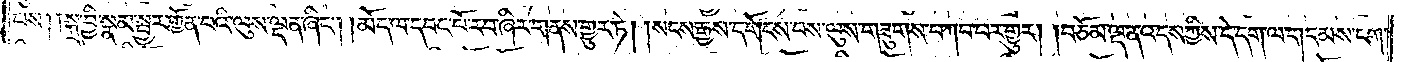པས། །སྐྲ་བྱི་སྣམ་སྦྱར་གྱོན་པའི་ལུས་ལྡན་ཞིང༌། །མོད་ལ་དབང་པོ་རབ་ཞིར་གནས་གྱུར་ཏེ། །སངས་རྒྱས་དགོངས་པས་ལུས་གཟུགས་བཀབ་པར་གྱུར། །བཅོམ་ལྡན་འདས་ཀྱིས་དེ་དག་ལ་གདམས་ངག་
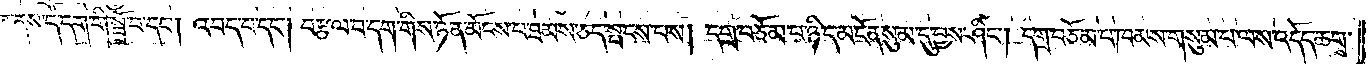བྱིན་ནས་དེ་དག་གིས་སྤྲོ་བ་དང༌། འབད་པ་དང༌། བརྩལ་བ་དག་གིས་ཉོན་མོངས་པ་ཐམས་ཅད་སྤངས་པས། དགྲ་བཅོམ་པ་ཉིད་མངོན་སུམ་དུ་བྱས་ཤིང༌། དགྲ་བཅོམ་པ་ཁམས་གསུམ་པ་ལས་འདོད་ཆགས་
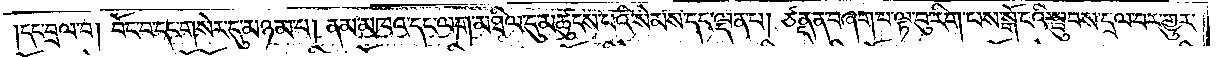།དང་བྲལ་བ། བོང་བ་དང་གསེར་དུ་མཉམ་པ། ནམ་མཁའ་དང་ལག་མཐིལ་དུ་མཚུངས་པའི་སེམས་དང་ལྡན་པ། ཙནྡན་བཞག་པ་ལྟ་བུ་རིག་པས་སྒོ་ངའི་སྦུབས་དྲལ་བར་གྱུར་
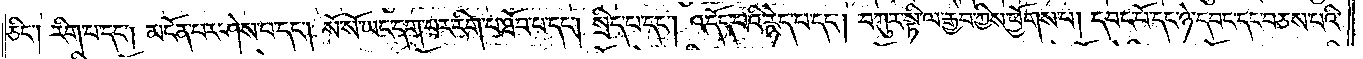ཅིང༌། རིག་པ་དང༌། མངོན་པར་ཤེས་པ་དང༌། སོ་སོ་ཡང་དག་པར་རིག་པ་ཐོབ་པ་དང༌། སྲིད་པ་དང༌། འདོད་པའི་རྙེད་པ་དང༌། བཀུར་སྟི་ལ་རྒྱབ་ཀྱིས་ཕྱོགས་པ། དབང་པོ་དང་ཉེ་དབང་དང་བཅས་པའི་
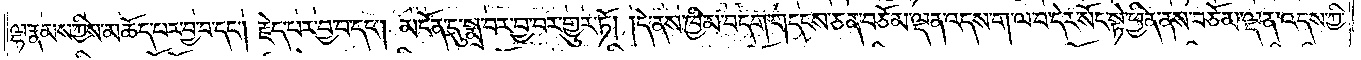ལྷ་རྣམས་ཀྱིས་མཆོད་པར་བྱ་བ་དང༌། རྗེད་པར་བྱ་བ་དང༌། མངོན་དུ་སྨྲ་བར་བྱ་བར་གྱུར་ཏོ། །དེ་ནས་ཁྱིམ་བདག་གདངས་ཅན་བཅོམ་ལྡན་འདས་ག་ལ་བ་དེར་སོང་སྟེ་ཕྱིན་ནས་བཅོམ་ལྡན་འདས་ཀྱི་
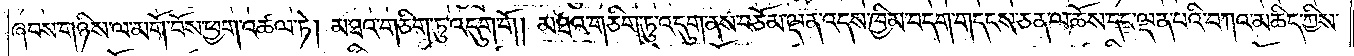ཞབས་གཉིས་ལ་མགོ་བོས་ཕྱག་འཚལ་ཏེ། མཐའ་གཅིག་ཏུ་འདུག་གོ །མཐའ་གཅིག་ཏུ་འདུག་ནས་བཅོམ་ལྡན་འདས་ཁྱིམ་བདག་གདངས་ཅན་ལ་ཆོས་དང་ལྡན་པའི་བཀའ་མཆིད་ཀྱིས་
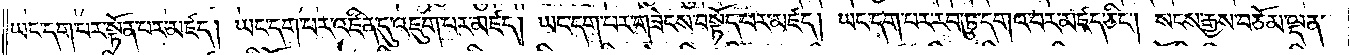ཡང་དག་པར་སྟོན་པར་མཛད། ཡང་དག་པར་འཛིན་དུ་འཇུག་པར་མཛད། ཡང་དག་པར་གཟེངས་བསྟོད་པར་མཛད། ཡང་དག་པར་རབ་ཏུ་དགའ་བར་མཛད་ཅིང༌། སངས་རྒྱས་བཅོམ་ལྡན་
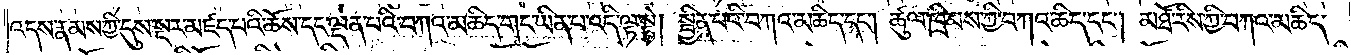འདས་རྣམས་ཀྱི་དུས་སྔར་མཛད་པའི་ཆོས་དང་ལྡན་པའི་བཀའ་མཆིད་གང་ཡིན་པ་འདི་ལྟ་སྟེ། སྦྱིན་པའི་བཀའ་མཆིད་དང༌། ཚུལ་ཁྲིམས་ཀྱི་བཀའ་ཆིད་དང༌། མཐོ་རིས་ཀྱི་བཀའ་མཆིད་
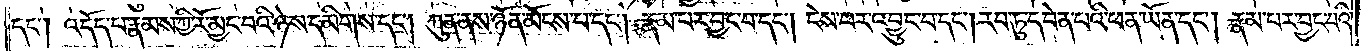དང༌། འདོད་པ་རྣམས་ཀྱི་རོ་མྱང་བའི་ཉེས་དམིགས་དང༌། ཀུན་ནས་ཉོན་མོངས་པ་དང༌། རྣམ་པར་བྱང་བ་དང༌། ངེས་པར་འབྱུང་བ་དང༌། རབ་ཏུ་དབེན་པའི་ཕན་ཡོན་དང༌། རྣམ་པར་བྱང་བའི་
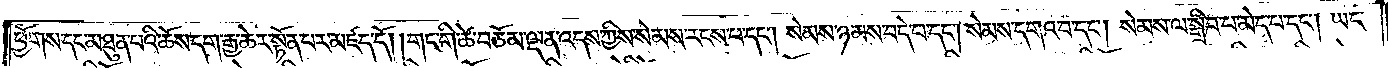ཕྱོགས་དང་མཐུན་པའི་ཆོས་དག་རྒྱ་ཆེར་སྟོན་པར་མཛད་དོ། །གང་གི་ཚེ་བཅོམ་ལྡན་འདས་ཀྱིས་སེམས་རངས་པ་དང༌། སེམས་ཉམས་བདེ་བ་དང༌། སེམས་དགའ་བ་དང༌། སེམས་ལ་སྒྲིབ་པ་མེད་པ་དང༌། ཡང་
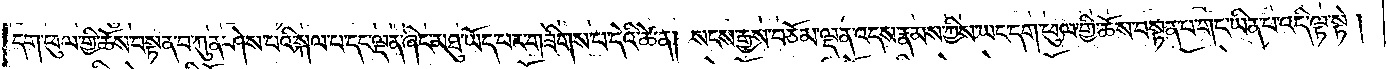དག་ཕུལ་གྱི་ཆོས་བསྟན་བ་ཀུན་ཤེས་པའི་སྐལ་པ་དང་ལྡན་ཞིང་མཐུ་ཡོད་པར་གཟིགས་པ་དེའི་ཚེ་ན། སངས་རྒྱས་བཅོམ་ལྡན་འདས་རྣམས་ཀྱིས་ཡང་དག་ཕུལ་གྱི་ཆོས་བསྟན་པ་གང་ཡིན་པ་འདི་ལྟ་སྟེ།
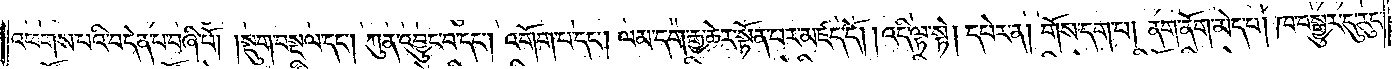འཕགས་པའི་བདེན་པ་བཞི་པོ། །སྡུག་བསྔལ་དང༌། ཀུན་འབྱུང་བ་དང༌། འགོག་པ་དང༌། ལམ་དག་རྒྱ་ཆེར་སྟོན་པར་མཛད་དོ། །འདི་ལྟ་སྟེ། དཔེར་ན། གོས་དག་པ། ནག་ནོག་མེད་པ། ཁ་བསྒྱུར་དུ་རུང་
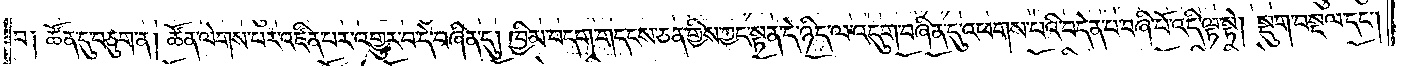བ༑ ཚོན་དུ་བཅུག་ན། ཚོན་ལེགས་པར་འཛིན་པར་འགྱུར་བ་དེ་བཞིན་དུ། ཁྱིམ་བདག་གདངས་ཅན་གྱིས་ཀྱང་སྟན་དེ་ཉིད་ལ་འདུག་བཞིན་དུ་འཕགས་པའི་བདེན་པ་བཞི་པོ་འདི་ལྟ་སྟེ། སྡུག་བསྔལ་དང༌།
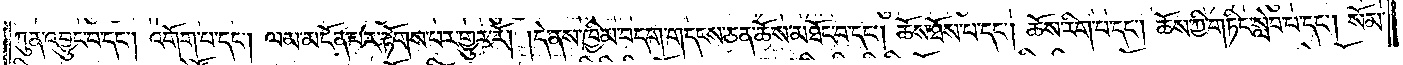ཀུན་འབྱུང་བ་དང༌། འགོག་པ་དང༌། ལམ་མངོན་པར་རྟོགས་པར་གྱུར་རོ། །དེ་ནས་ཁྱིམ་བདག་གདངས་ཅན་ཆོས་མཐོང་བ་དང༌། ཆོས་ཐོས་པ་དང༌། ཆོས་རིག་པ་དང༌། ཆོས་ཀྱི་གཏིང་སླེབ་པ་དང༌། སོམ་
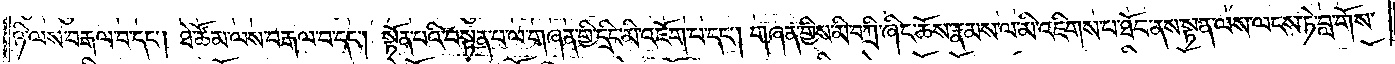ཉི་ལས་བརྒལ་བ་དང༌། ཐེ་ཚོམ་ལས་བརྒལ་བ་དང༌། སྟོན་པའི་བསྟན་པ་ལ་གཞན་གྱི་དྲིང་མི་འཇོག་པ་དང༌། གཞན་གྱིས་མི་བཀྲི་ཞིང་ཆོས་རྣམས་ལ་མི་འཇིགས་པ་ཐོང་ནས་སྟན་ལས་ལངས་ཏེ་བླ་གོས་
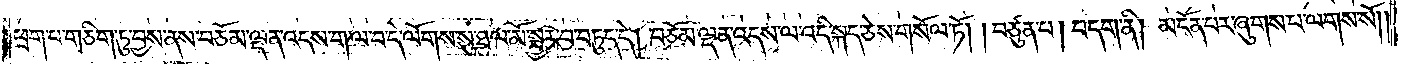ཕྲག་པ་གཅིག་ཏུ་བྱས་ནས་བཅོམ་ལྡན་འདས་ག་ལ་བ་དེ་ལོགས་སུ་ཐལ་མོ་སྦྱར་བ་བཏུད་དེ། བཅོམ་ལྡན་འདས་ལ་འདི་སྐད་ཅེས་གསོལ་ཏོ། །བཙུན་པ། བདག་ནི། མངོན་པར་ཞུགས་པ་ལགས་སོ། །
